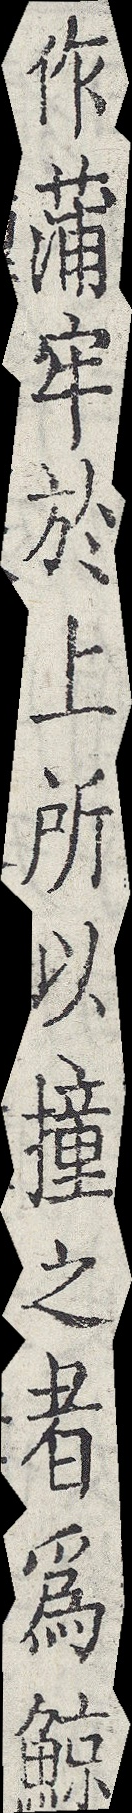作蒲牢於上所以撞之者為鯨
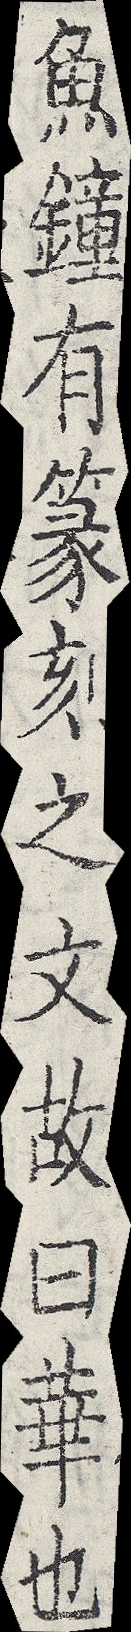魚鐘有篆刻之文故曰華也
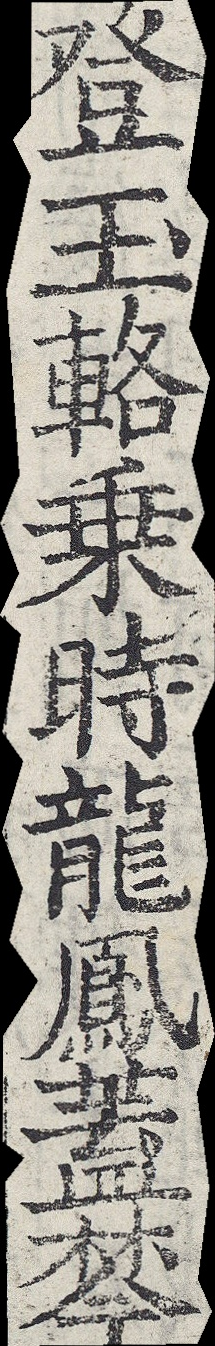登玉輅乘時龍鳳蓋棽
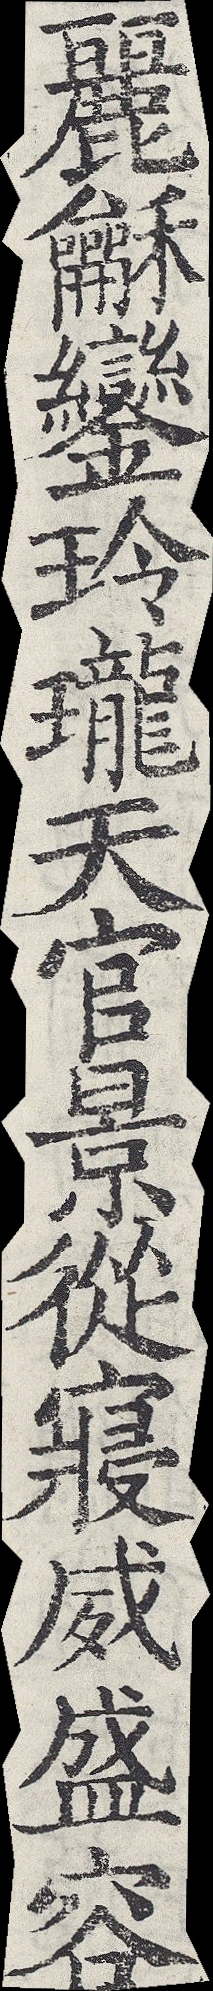麗龢鑾玲瓏天官景從寢威盛容
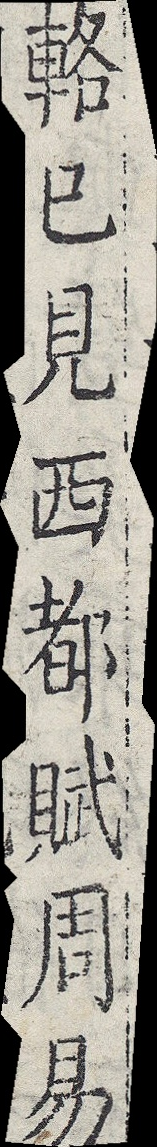輅已見西都賦周易
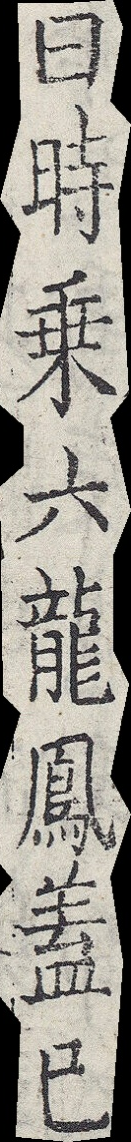曰時乘六龍鳳蓋已
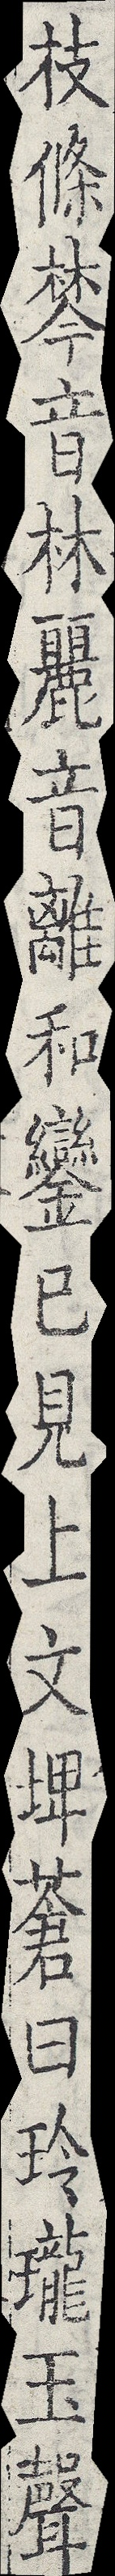枝條棽音林麗音離和鑾已見上文埤蒼曰玲瓏玉聲
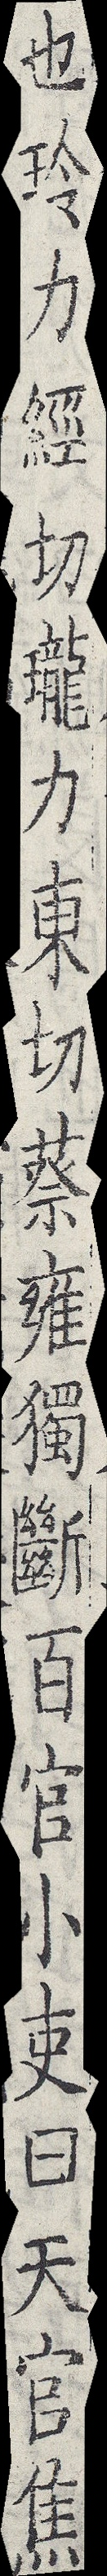也玲力經切瓏力東切蔡雍獨斷百官小吏曰天官焦
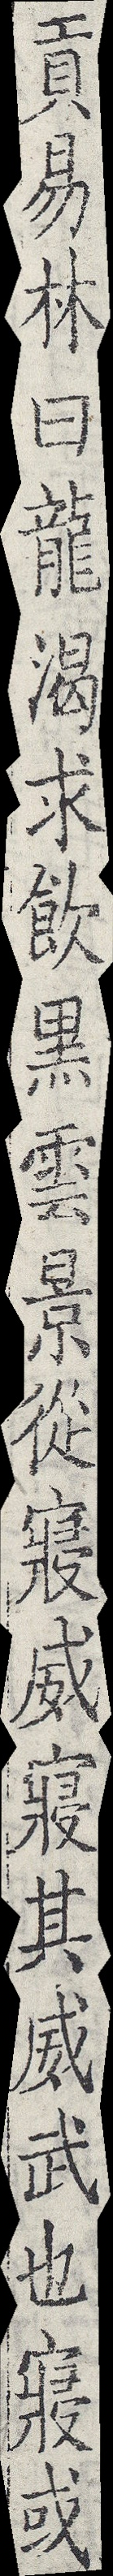貢易林曰龍渴求飲黑雲景從寢威寢其威武也寢或
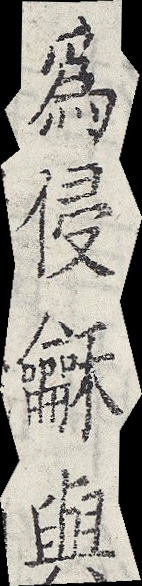為侵龢與
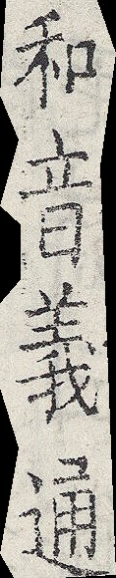和音義通
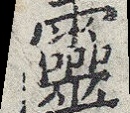靈
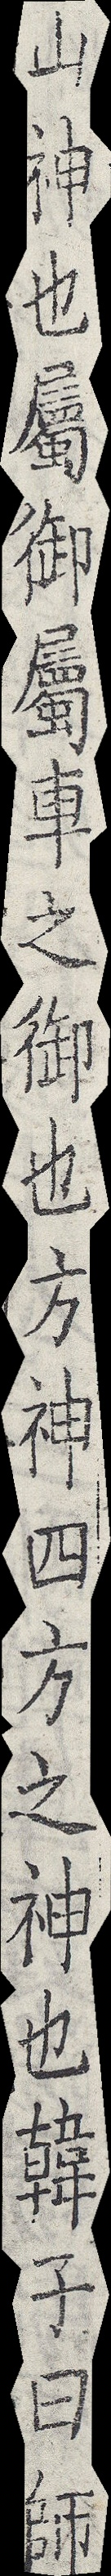山神也屬御屬車之御也方神四方之神也韓子曰師
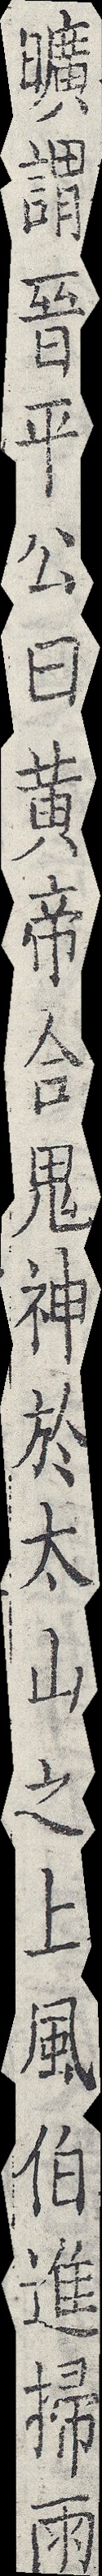曠謂晉平公曰黃帝合鬼神於太山之上風伯進掃雨
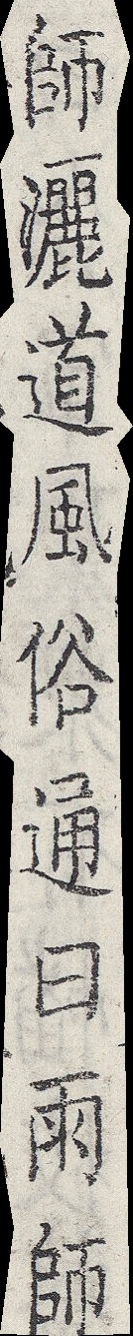師灑道風俗通曰雨師
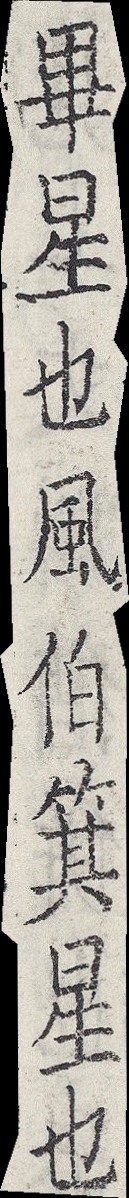畢星也風伯箕星也
